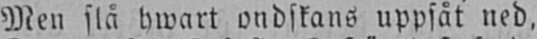Men slå hwart ondskans uppsåt ned,
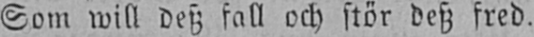Som will desz fall och stör desz fred.
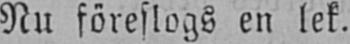Nu föreslogs en lek.
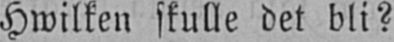Hwilken skulle det bli?
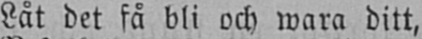Låt det få bli och wara ditt,
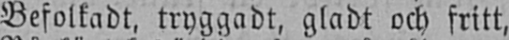Befolkadt, tryggadt, gladt och fritt,
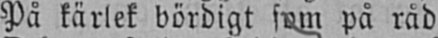På kärlek bördigt som på råd
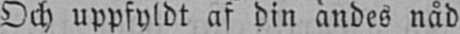Och uppfyldt af din andes nåd
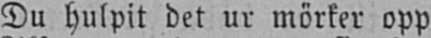Du hulpit det ur mörker opp
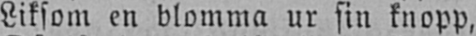Liksom en blomma ur sin knopp,
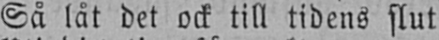Så låt det ock till tidens slut
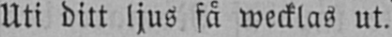Uti ditt ljus få wecklas ut.
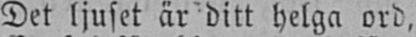Det ljuset är ditt helga ord,
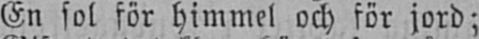En sol för himmel och för jord;
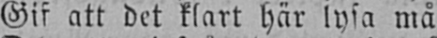Gif att det klart här lysa må
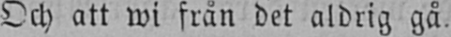Och att wi från det aldrig gå.
